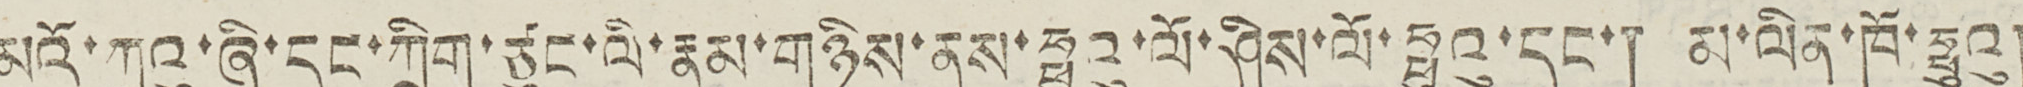མའོ་ཀྲུའུ་ཞི་དང་ཀྲིག་ཙུང་ལི་རྣམ་གཉིས་ནས་ཧྥུའུ་ལོ་ཤིས་ལོ་ཧྥུའུ་དང་། མ་ལིན་ཁོ་ཧྥུའུ།
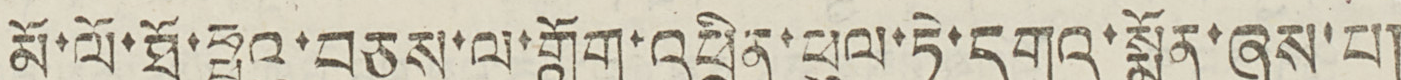མོ་ལོ་ཐོ་ཧྥུའུ་བཅས་ལ་གློག་འཕྲིན་ཕུལ་ཏེ་དགའ་སྨོན་ཞུས་པ།
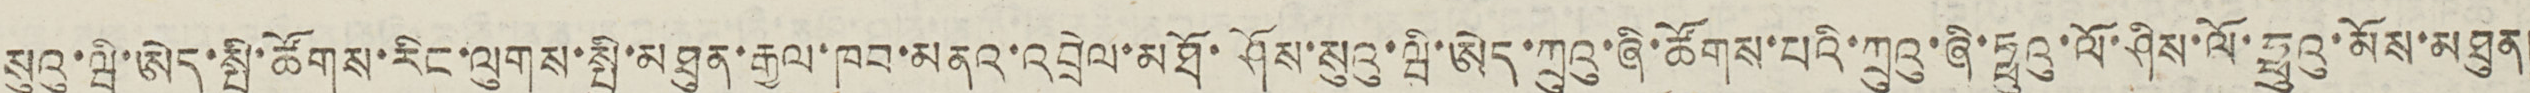སུའུ་ཝི་ཨེད་སྤྱི་ཚོགས་རིང་ལུགས་སྤྱི་མཐུན་རྒྱལ་ཁབ་མནའ་འབྲེལ་མཐོ་ཤོས་སུའུ་ཝི་ཨེད་ཀྲུའུ་ཞི་ཚོགས་པའི་ཀྲུའུ་ཞི་ཧྥུའུ་ལོ་ཤིས་ལོ་ཧྥུའུ་མོས་མཐུན།
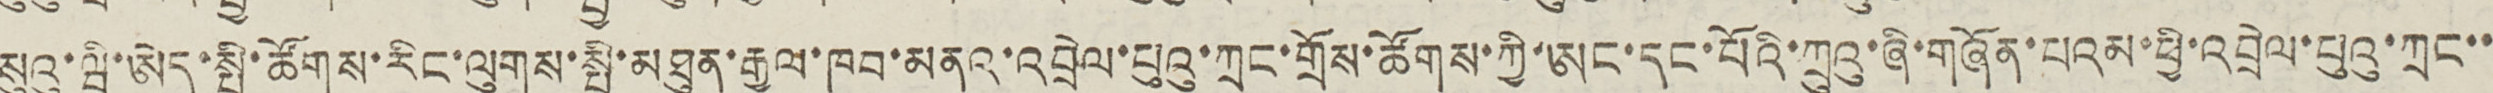སུའུ་ཝི་ཨེད་སྤྱི་ཚོགས་རིང་ལུགས་སྤྱི་མཐུན་རྒྱལ་ཁབ་མནའ་འབྲེལ་པུའུ་ཀྲང་གྲོས་ཚོགས་ཀྱི་ཨང་དང་པོའི་ཀྲུའུ་ཞི་གཞོན་པའམ་ཕྱི་འབྲེལ་པུའུ་ཀྲང་་
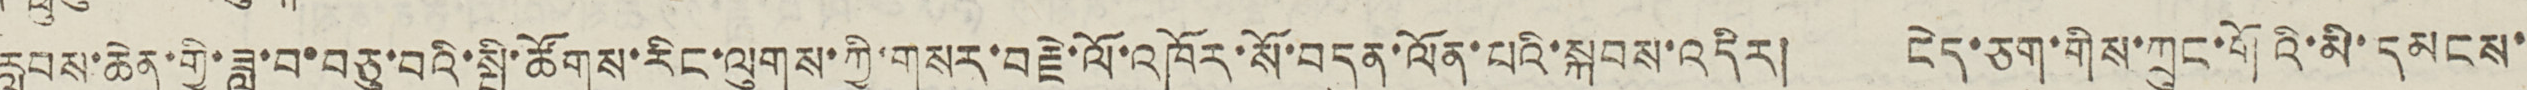རླབས་ཆེན་གྱི་ཟླ་བ་བཅུ་བའི་སྤྱི་ཚོགས་རིང་ལུགས་ཀྱི་གསར་བརྗེ་ལོ་འཁོར་སོ་བདུན་ལོན་པའི་སྐབས་འདིར། ངེད་ཅག་གིས་ཀྲུང་གོའི་མི་དམངས་
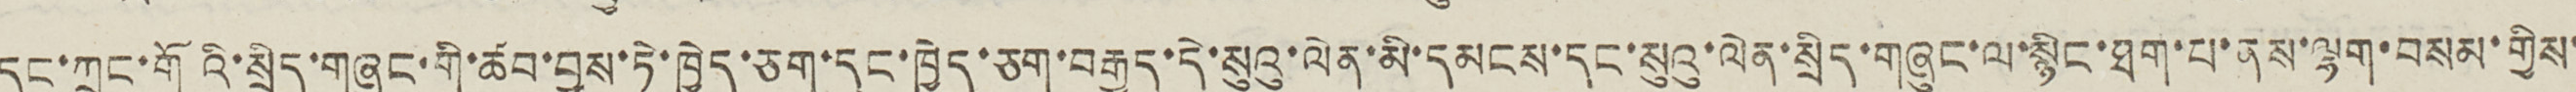དང་ཀྲུང་གོའི་སྲིད་གཞུང་གི་ཚབ་བྱས་ཏེ་ཁྱེད་ཅག་དང་ཁྱེད་ཅག་བརྒྱུད་དེ་སུའུ་ལེན་མི་དམངས་དང་སུའུ་ལེན་སྲིད་གཞུང་ལ་སྙིང་ཐག་པ་ནས་ལྷག་བསམ་གྱིས་
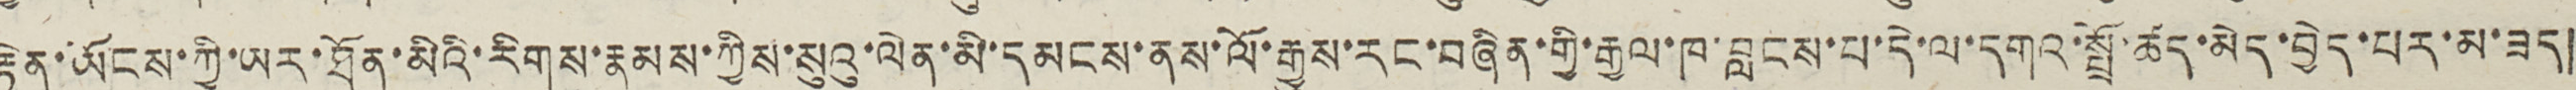རྟེན་ཡོངས་ཀྱི་ཡར་ཐོན་མིའི་རིགས་རྣམས་ཀྱིས་སུའུ་ལེན་མི་དམངས་ནས་ལོ་རྒྱུས་རང་བཞིན་གྱི་རྒྱལ་ཁ་བླངས་པ་དེ་ལ་དགའ་སྤྲོ་ཚད་མེད་བྱེད་པར་མ་ཟད།
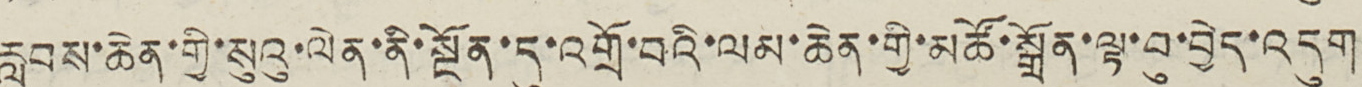རླབས་ཆེན་གྱི་སུའུ་ལེན་ནི་སྔོན་དུ་འགྲོ་བའི་ལམ་ཆེན་གྱི་མཚོ་སྒྲོན་ལྟ་བུ་བྱེད་འདུག
